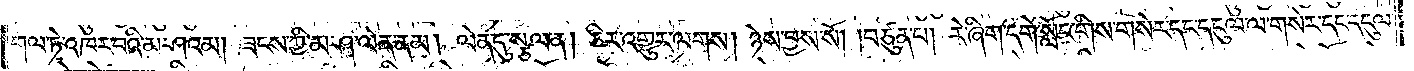གལ་ཏེ་འཁར་བའི་མ་ཤའམ། ཟངས་ཀྱི་མ་ཤ་ལེན་ནམ། ལེན་དུ་སྩལ་ན། ཅིར་འགྱུར་ལགས། ཉེས་བྱས་སོ། །བཙུན་པ། རེ་ཞིག་དགེ་སློང་གིས་གསེར་དང་དངུལ་ལ་གསེར་དང་དངུལ་
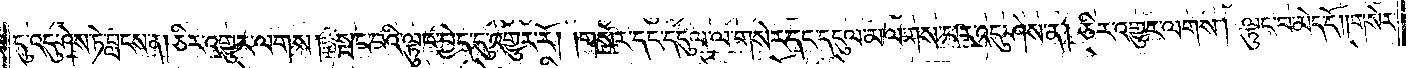དུ་འདུ་ཤེས་ཏེ་བླངས་ན། ཅིར་འགྱུར་ལགས། སྤང་བའི་ལྟུང་བྱེད་དུ་འགྱུར་རོ། །གསེར་དང་དངུལ་ལ་གསེར་དང་དངུལ་མ་ལགས་པར་འདུ་ཤེས་ན། ཅིར་འགྱུར་ལགས། ལྟུང་བ་མེད་དོ། །གསེར་
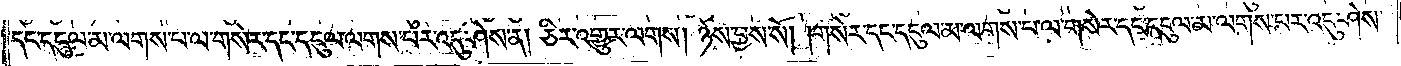དང་དངུལ་མ་ལགས་པ་ལ་གསེར་དང་དངུལ་ལགས་པར་འདུ་ཤེས་ན། ཅིར་འགྱུར་ལགས། ཉེས་བྱས་སོ། །གསེར་དང་དངུལ་མ་ལགས་པ་ལ་གསེར་དང་དངུལ་མ་ལགས་པར་འདུ་ཤེས་
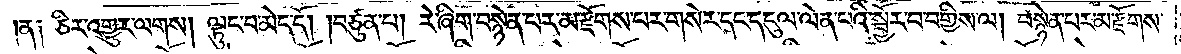།ན༑ ཅིར་འགྱུར་ལགས། ལྟུང་བ་མེད་དོ། །བཙུན་པ། རེ་ཞིག་བསྙེན་པར་མ་རྫོགས་པར་གསེར་དང་དངུལ་ལེན་པའི་སྦྱོར་བ་བགྱིས་ལ། བསྙེན་པར་མ་རྫོགས་
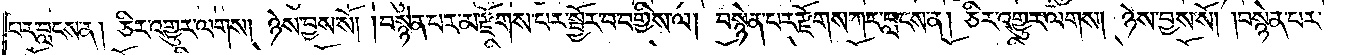པར་བླངས་ན། ཅིར་འགྱུར་ལགས། ཉེས་བྱས་སོ། །བསྙེན་པར་མ་རྫོགས་པར་སྦྱོར་བ་བགྱིས་ལ། བསྙེན་པར་རྫོགས་ཀར་བླངས་ན། ཅིར་འགྱུར་ལགས། ཉེས་བྱས་སོ། །བསྙེན་པར་
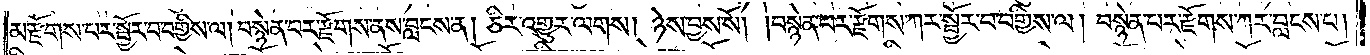མ་རྫོགས་པར་སྦྱོར་བ་བགྱིས་ལ། བསྙེན་པར་རྫོགས་ནས་བླངས་ན། ཅིར་འགྱུར་ལགས། ཉེས་བྱས་སོ། །བསྙེན་པར་རྫོགས་ཀར་སྦྱོར་བ་བགྱིས་ལ། བསྙེན་པར་རྫོགས་ཀར་བླངས་པ།
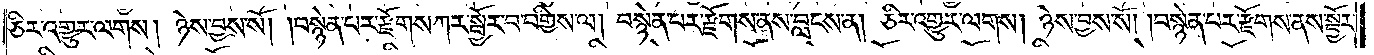ཅིར་འགྱུར་ལགས། ཉེས་བྱས་སོ། །བསྙེན་པར་རྫོགས་ཀར་སྦྱོར་བ་བགྱིས་ལ། བསྙེན་པར་རྫོགས་ནས་བླངས་ན། ཅིར་འགྱུར་ལགས། ཉེས་བྱས་སོ། །བསྙེན་པར་རྫོགས་ནས་སྦྱོར་
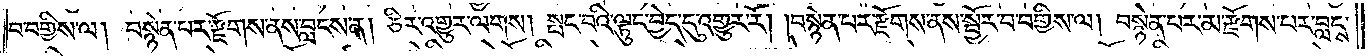བ་བགྱིས་ལ། བསྙེན་པར་རྫོགས་ནས་བླངས་ན། ཅིར་འགྱུར་ལགས། སྤང་བའི་ལྟུང་བྱེད་དུ་འགྱུར་རོ། །བསྙེན་པར་རྫོགས་ནས་སྦྱོར་བ་བགྱིས་ལ། བསྙེན་པར་མ་རྫོགས་པར་བླངས་
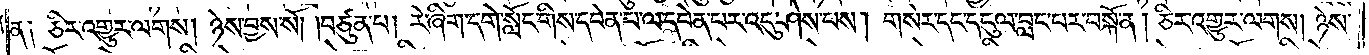ན༑ ཅིར་འགྱུར་ལགས། ཉེས་བྱས་སོ། །བཙུན་པ། རེ་ཞིག་དགེ་སློང་གིས་དབེན་པ་ལ་དབེན་པར་འདུ་ཤེས་པས། གསེར་དང་དངུལ་བླང་བར་བསྐོ་ན། ཅིར་འགྱུར་ལགས། ཉེས་
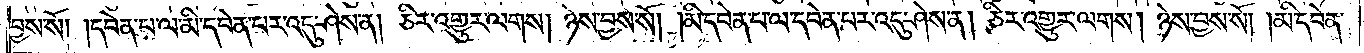བྱས་སོ། །དབེན་པ་ལ་མི་དབེན་པར་འདུ་ཤེས་ན། ཅིར་འགྱུར་ལགས། ཉེས་བྱས་སོ། །མི་དབེན་པ་ལ་དབེན་པར་འདུ་ཤེས་ན། ཅིར་འགྱུར་ལགས། ཉེས་བྱས་སོ། །མི་དབེན་
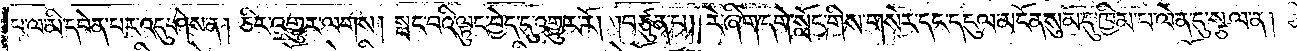པ་ལ་མི་དབེན་པར་འདུ་ཤེས་ན། ཅིར་འགྱུར་ལགས། སྤང་བའི་ལྟུང་བྱེད་དུ་འགྱུར་རོ། །བཙུན་པ། རེ་ཞིག་དགེ་སློང་གིས་གསེར་དང་དངུལ་མངོན་སུམ་དུ་ཁྱིམ་པ་ལེན་དུ་སྩལ་ན། ཅིར་འགྱུར་
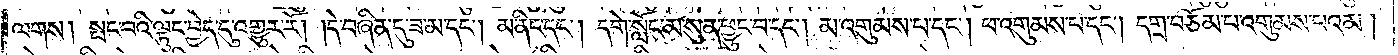ལགས། སྤང་བའི་ལྟུང་བྱེད་དུ་འགྱུར་རོ། །དེ་བཞིན་དུ་ཟ་མ་དང༌། མ་ནིང་དང༌། དགེ་སློང་མ་སུན་ཕྱུང་བ་དང༌། མ་འགུམས་པ་དང༌། ཕ་འགུམས་པ་དང༌། དགྲ་བཅོམ་པ་འགུམས་པའམ།
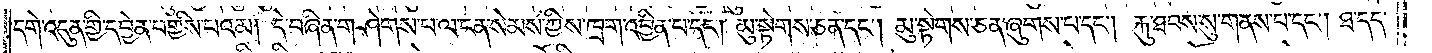དགེ་འདུན་གྱིས་དབྱེན་བགྱིས་པའམ། དེ་བཞིན་གཤེགས་པ་ལ་ངན་སེམས་ཀྱིས་ཁྲག་འབྱིན་པ་དང༌། མུ་སྟེགས་ཅན་དང༌། མུ་སྟེགས་ཅན་ཞུགས་པ་དང༌། རྐུ་ཐབས་སུ་གནས་པ་དང༌། ཐ་དད་
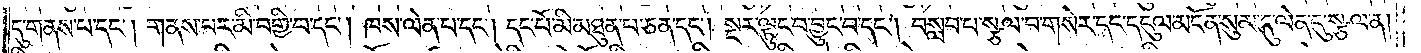དུ་གནས་པ་དང༌། གནས་པར་མི་བགྱི་བ་དང༌། ཁས་ལེན་པ་དང༌། དང་པོ་མི་མཐུན་པ་ཅན་དང༌། སྔར་ལྟུང་བ་བྱུང་བ་དང༌། བསླབ་པ་སྩལ་བ་གསེར་དང་དངུལ་མངོན་སུམ་དུ་ལེན་དུ་སྩལ་ན།
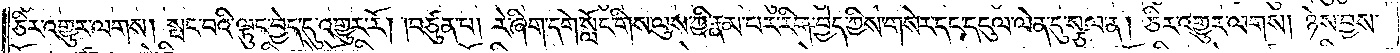ཅིར་འགྱུར་ལགས། སྤང་བའི་ལྟུང་བྱེད་དུ་འགྱུར་རོ། །བཙུན་པ། རེ་ཞིག་དགེ་སློང་གིས་ལུས་ཀྱི་རྣམ་པར་རིག་བྱེད་ཀྱིས་གསེར་དང་དངུལ་ལེན་དུ་སྩལ་ན། ཅིར་འགྱུར་ལགས། ཉེས་བྱས་
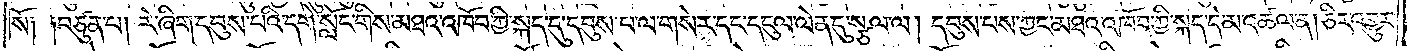སོ༑ ༑བཙུན་པ། རེ་ཞིག་དབུས་པའི་དགེ་སློང་གིས་མཐའ་འཁོབ་ཀྱི་སྐད་དུ་དབུས་པ་ལ་གསེར་དང་དངུལ་ལེན་དུ་སྩལ་ལ། དབུས་པས་ཀྱང་མཐའ་འཁོབ་ཀྱི་སྐད་དེ་མ་འཚལ་ན། ཅིར་འགྱུར་
